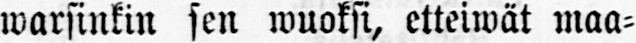warsinkin sen wuoksi, etteiwät maa-
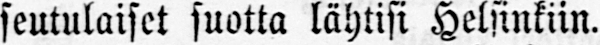seutulaiset suotta lähtisi Helsinkiin.
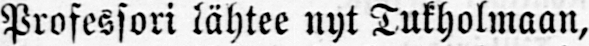Professori lähtee nyt Tukholmaan,
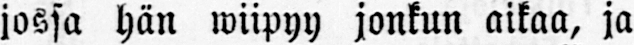jossa hän wiipyy jonkun aikaa, ja
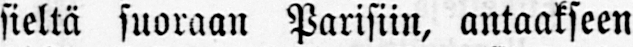sieltä suoraan Parisiin, antaakseen
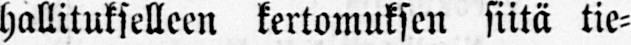hallitukselleen kertomuksen siitä tie-
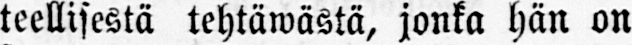teellisestä tehtäwästä, jonka hän on
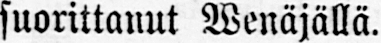suorittanut Wenäjällä.
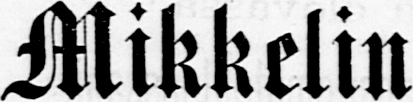Mikkelin
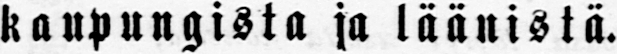kaupungista ja läänistä.
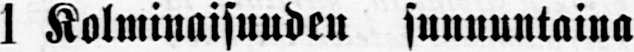1 Kolminaisuuden sunnuntaina
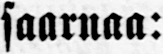saarnaa:
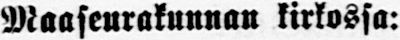Maaseurakunnan kirkossa:
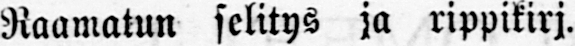Raamatun selitys ja rippikirj.
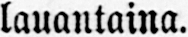lauantaina.
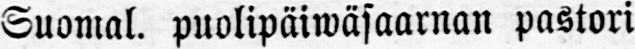Suomal. puolipäiwäsaarnan pastori
